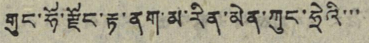གུང་ཧོ་རྫོང་རྟ་ནག་མ་རིན་མེན་ཀུང་ཧྲེའི་་་་
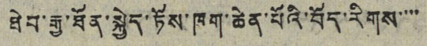ཐེབ་རྒྱུ་ཐོན་སྐྱེད་ཏོས་ཁག་ཆེན་པོའི་བོད་རིགས་་་་
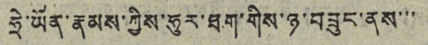ཧྲེ་ཡོན་རྣམས་ཀྱིས་ཧུར་ཐག་གིས་ཉ་བཟུང་ནས་་་་་
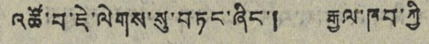འཚོ་བ་ཇེ་ལེགས་སུ་བཏང་ཞིང་། རྒྱལ་ཁབ་ཀྱི
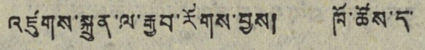འཛུགས་སྐྲུན་ལ་རྒྱབ་རོགས་བྱས། ཁོ་ཚོས་ད་
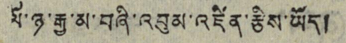པོ་ཉ་རྒྱ་མ་བཞི་འབུམ་འཛིན་རྩིས་ཡོད།
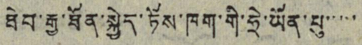ཐེབ་རྒྱུ་ཐོན་སྐྱེད་ཏོས་ཁག་གི་ཧྲེ་ཡོན་པུ་་་་་
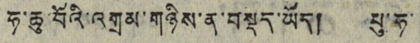ཧ་ཆུ་བོའི་འགྲམ་གཉིས་ན་བསྡད་ཡོད། པུ་ཧ་
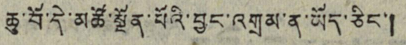ཆུ་བོ་དེ་མཚོ་སྔོན་པོའི་བྱང་འགྲམ་ན་ཡོད་ཅིང་།
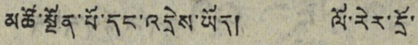མཚོ་སྔོན་པོ་དང་འདྲེས་ཡོད། ལོ་རེར་དྲོ་
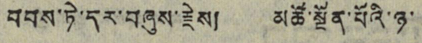བབས་ཏེ་དར་བཞུས་རྗེས། མཚོ་སྔོན་པོའི་ཉ་་
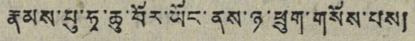རྣམས་པུ་ཧྭ་ཆུ་བོར་ཡོང་ནས་ཉ་ཕྲུག་གསོས་པས།
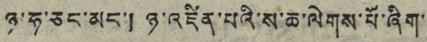ཉ་ཧ་ཅང་མང་། ཉ་འཛིན་པའི་ས་ཆ་ལེགས་པོ་ཞིག་
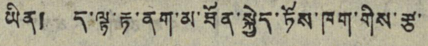ཡིན། ད་ལྟ་རྟ་ནག་མ་ཐོན་སྐྱེད་ཏོས་ཁག་གིས་རྩ་་
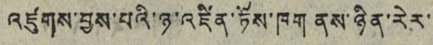འཛུགས་བྱས་པའི་ཉ་འཛིན་ཏོས་ཁག ནས་ཉིན་རེར་
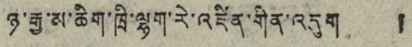ཉ་རྒྱ་མ་ཆིག་ཁྲི་ལྷག་རེ་འཛིན་གིན་འདུག །
